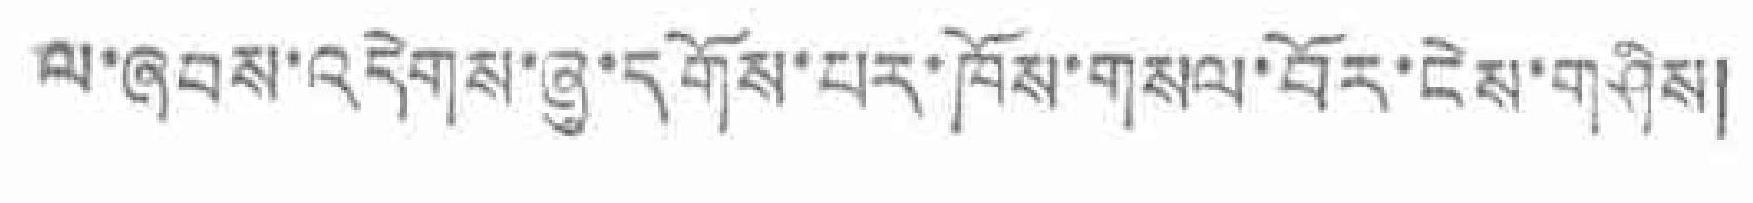ལ་ཞབས་འདེགས་ཞུ་དགོས་པར་ཁོས་གསལ་བོད་ངེས་གཤིས།
